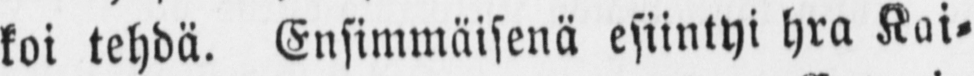koi tehdä. Ensimmäisenä esiintyi hra Kai-
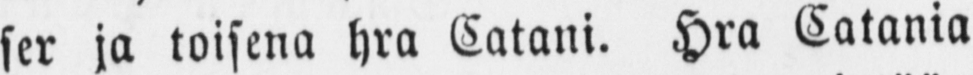ser ja toisena hra Catani. Hra Catania
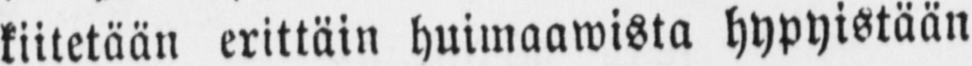kiitetään erittäin huimaawista hypyistään
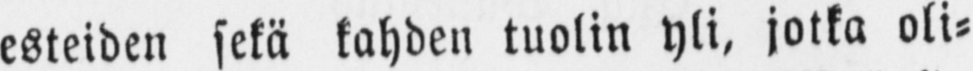esteiden sekä kahden tuolin yli, jotka oli-
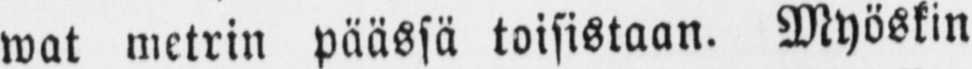wat metrin päässä toisistaan. Myöskin
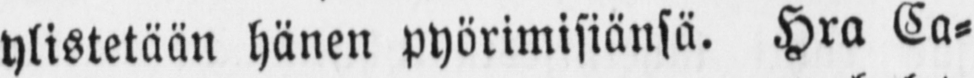ylistetään hänen pyörimisiänsä. Hra Ca-
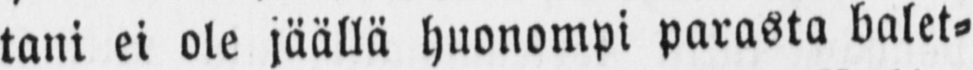tani ei ole jäällä huonompi parasta balet-
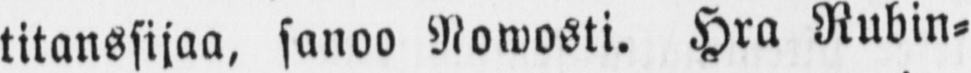titanssijaa, sanoo Nowosti. Hra Rubin-
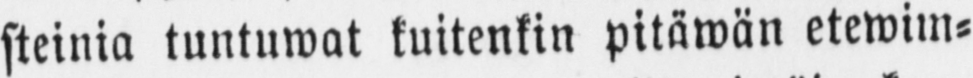steinia tuntuwat kuitenkin pitäwän etewim-
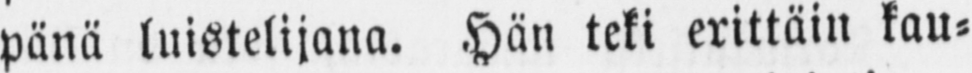pänä luistelijana. Hän teki erittäin kau-
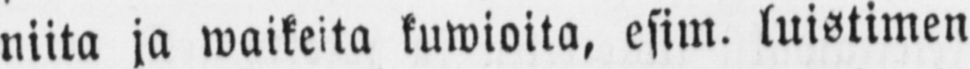niita ja waikeita kuwioita, esim. luistimen
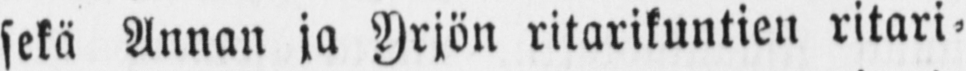sekä Annan ja Yrjön ritarikuntien ritari-
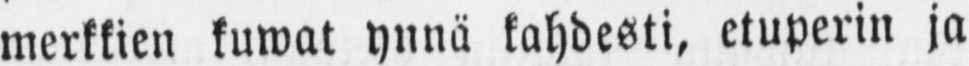merkkien kuwat ynnä kahdesti, etuperin ja
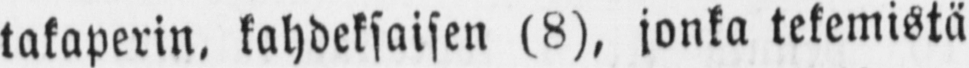takaperin, kahdeksaisen (8), jonka tekemistä
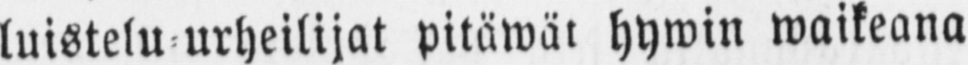luistelu urheilijat pitäwät hywin wuikeana
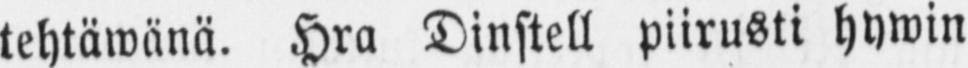tehtäwänä. Hra Dinstell piirusti hywin
